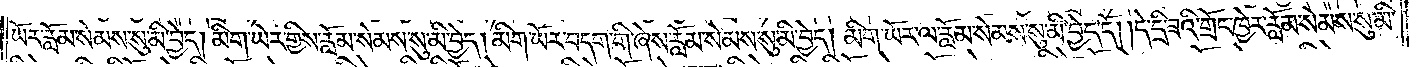ཡོར་རློམ་སེམས་སུ་མི་བྱེད། མིག་ཡོར་གྱིས་རློམ་སེམས་སུ་མི་བྱེད། མིག་ཡོར་བདག་གི་ཞེས་རློམ་སེམས་སུ་མི་བྱེད། མིག་ཡོར་ལ་རློམ་སེམས་སུ་མི་བྱེད་དོ། །དེ་དྲི་ཟའི་གྲོང་ཁྱེར་རློམ་སེམས་སུ་མི་
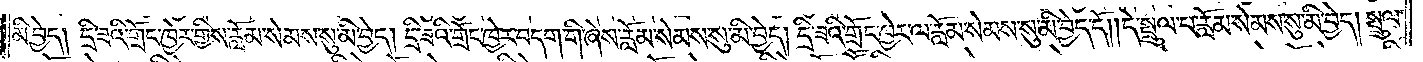མི་བྱེད། དྲི་ཟའི་གྲོང་ཁྱེར་གྱིས་རློམ་སེམས་སུ་མི་བྱེད། དྲི་ཟའི་གྲོང་ཁྱེར་བདག་གི་ཞེས་རློམ་སེམས་སུ་མི་བྱེད། དྲི་ཟའི་གྲོང་ཁྱེར་ལ་རློམ་སེམས་སུ་མི་བྱེད་དོ། །དེ་སྤྲུལ་པ་རློམ་སེམས་སུ་མི་བྱེད། སྤྲུལ་
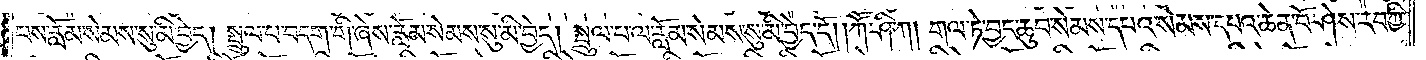པས་རློམ་སེམས་སུ་མི་བྱེད། སྤྲུལ་པ་བདག་གི་ཞེས་རློམ་སེམས་སུ་མི་བྱེད། སྤྲུལ་པ་ལ་རློམ་སེམས་སུ་མི་བྱེད་དོ། །ཀཽ་ཤི་ཀ། གལ་ཏེ་བྱང་ཆུབ་སེམས་དཔའ་སེམས་དཔའ་ཆེན་པོ་ཤེས་རབ་ཀྱི་
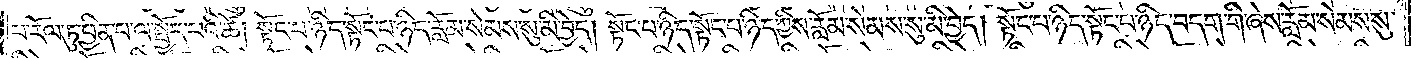ཕ་རོལ་ཏུ་ཕྱིན་པ་ལ་སྤྱོད་པའི་ཚེ། སྟོང་པ་ཉིད་སྟོང་པ་ཉིད་རློམ་སེམས་སུ་མི་བྱེད། སྟོང་པ་ཉིད་སྟོང་པ་ཉིད་ཀྱིས་རློམ་སེམས་སུ་མི་བྱེད། སྟོང་པ་ཉིད་སྟོང་པ་ཉིད་བདག་གི་ཞེས་རློམ་སེམས་སུ་
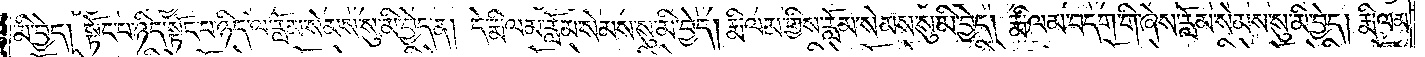མི་བྱེད། སྟོང་པ་ཉིད་སྟོང་པ་ཉིད་ལ་རློམ་སེམས་སུ་མི་བྱེད་ན། དེ་རྨི་ལམ་རློམ་སེམས་སུ་མི་བྱེད། རྨི་ལམ་གྱིས་རློམ་སེམས་སུ་མི་བྱེད། རྨི་ལམ་བདག་གི་ཞེས་རློམ་སེམས་སུ་མི་བྱེད། རྨི་ལམ་
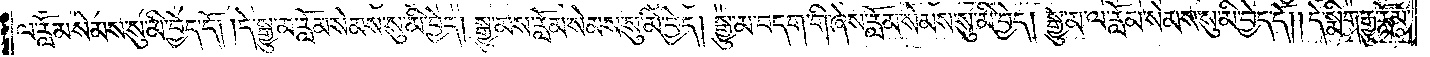ལ་རློམ་སེམས་སུ་མི་བྱེད་དོ། །དེ་སྒྱུ་མ་རློམ་སེམས་སུ་མི་བྱེད། སྒྱུ་མས་རློམ་སེམས་སུ་མི་བྱེད། སྒྱུ་མ་བདག་གི་ཞེས་རློམ་སེམས་སུ་མི་བྱེད། སྒྱུ་མ་ལ་རློམ་སེམས་སུ་མི་བྱེད་དོ། །དེ་སྨིག་རྒྱུ་རློམ་
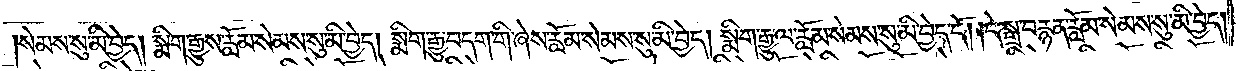སེམས་སུ་མི་བྱེད། སྨིག་རྒྱུས་རློམ་སེམས་སུ་མི་བྱེད། སྨིག་རྒྱུ་བདག་གི་ཞེས་རློམ་སེམས་སུ་མི་བྱེད། སྨིག་རྒྱུ་ལ་རློམ་སེམས་སུ་མི་བྱེད་དོ། །དེ་སྒྲ་བརྙན་རློམ་སེམས་སུ་མི་བྱེད།
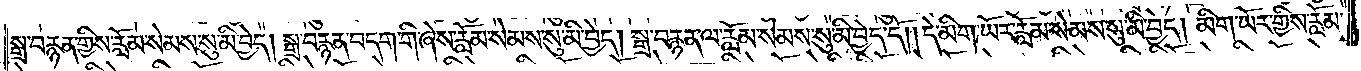སྒྲ་བརྙན་གྱིས་རློམ་སེམས་སུ་མི་བྱེད། སྒྲ་བརྙན་བདག་གི་ཞེས་རློམ་སེམས་སུ་མི་བྱེད། སྒྲ་བརྙན་ལ་རློམ་སེམས་སུ་མི་བྱེད་དོ། །དེ་མིག་ཡོར་རློམ་སེམས་སུ་མི་བྱེད། མིག་ཡོར་གྱིས་རློམ་
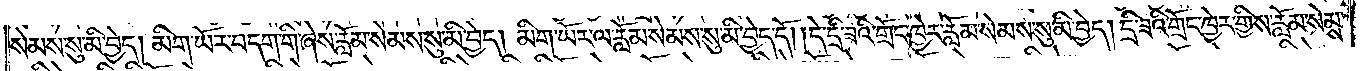སེམས་སུ་མི་བྱེད། མིག་ཡོར་བདག་གི་ཞེས་རློམ་སེམས་སུ་མི་བྱེད། མིག་ཡོར་ལ་རློམ་སེམས་སུ་མི་བྱེད་དོ། །དེ་དྲི་ཟའི་གྲོང་ཁྱེར་རློམ་སེམས་སུ་མི་བྱེད། དྲི་ཟའི་གྲོང་ཁྱེར་གྱིས་རློམ་སེམས་
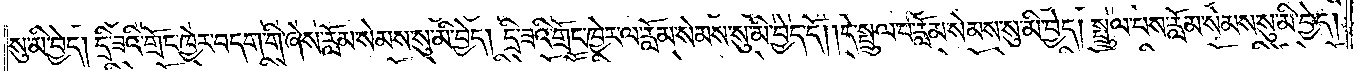སུ་མི་བྱེད། དྲི་ཟའི་གྲོང་ཁྱེར་བདག་གི་ཞེས་རློམ་སེམས་སུ་མི་བྱེད། དྲི་ཟའི་གྲོང་ཁྱེར་ལ་རློམ་སེམས་སུ་མི་བྱེད་དོ། །དེ་སྤྲུལ་པ་རློམ་སེམས་སུ་མི་བྱེད། སྤྲུལ་པས་རློམ་སེམས་སུ་མི་བྱེད།
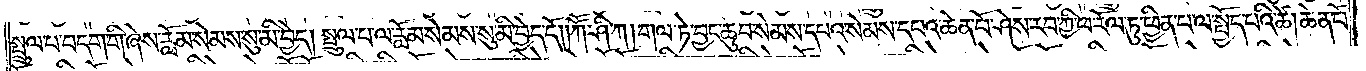སྤྲུལ་པ་བདག་གི་ཞེས་རློམ་སེམས་སུ་མི་བྱེད། སྤྲུལ་པ་ལ་རློམ་སེམས་སུ་མི་བྱེད་དོ། །ཀཽ་ཤི་ཀ། གལ་ཏེ་བྱང་ཆུབ་སེམས་དཔའ་སེམས་དཔའ་ཆེན་པོ་ཤེས་རབ་ཀྱི་ཕ་རོལ་ཏུ་ཕྱིན་པ་ལ་སྤྱོད་པའི་ཚེ། ཆེན་པོ་
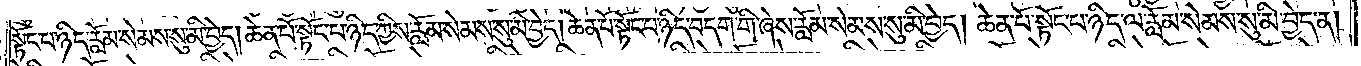སྟོང་པ་ཉིད་རློམ་སེམས་སུ་མི་བྱེད། ཆེན་པོ་སྟོང་པ་ཉིད་ཀྱིས་རློམ་སེམས་སུ་མི་བྱེད། ཆེན་པོ་སྟོང་པ་ཉིད་བདག་གི་ཞེས་རློམ་སེམས་སུ་མི་བྱེད། ཆེན་པོ་སྟོང་པ་ཉིད་ལ་རློམ་སེམས་སུ་མི་བྱེད་ན།
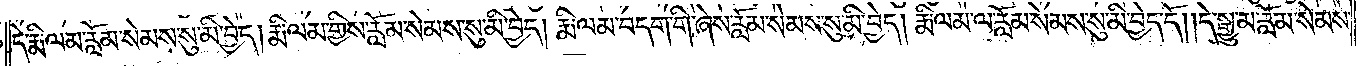དེ་རྨི་ལམ་རློམ་སེམས་སུ་མི་བྱེད། རྨི་ལམ་གྱིས་རློམ་སེམས་སུ་མི་བྱེད། རྨི་ལམ་བདག་གི་ཞེས་རློམ་སེམས་སུ་མི་བྱེད། རྨི་ལམ་ལ་རློམ་སེམས་སུ་མི་བྱེད་དོ། །དེ་སྒྱུ་མ་རློམ་སེམས་
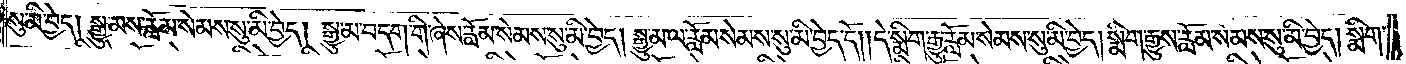སུ་མི་བྱེད། སྒྱུ་མས་རློམ་སེམས་སུ་མི་བྱེད། སྒྱུ་མ་བདག་གི་ཞེས་རློམ་སེམས་སུ་མི་བྱེད། སྒྱུ་མ་ལ་རློམ་སེམས་སུ་མི་བྱེད་དོ། །དེ་སྨིག་རྒྱུ་རློམ་སེམས་སུ་མི་བྱེད། སྨིག་རྒྱུས་རློམ་སེམས་སུ་མི་བྱེད། སྨིག་
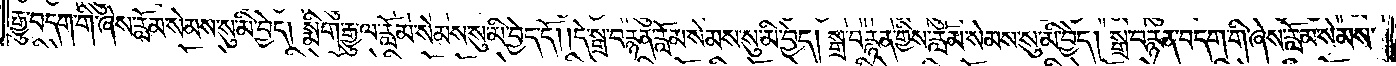རྒྱུ་བདག་གི་ཞེས་རློམ་སེམས་སུ་མི་བྱེད། སྨིག་རྒྱུ་ལ་རློམ་སེམས་སུ་མི་བྱེད་དོ། །དེ་སྒྲ་བརྙན་རློམ་སེམས་སུ་མི་བྱེད། སྒྲ་བརྙན་གྱིས་རློམ་སེམས་སུ་མི་བྱེད། སྒྲ་བརྙན་བདག་གི་ཞེས་རློམ་སེམས་
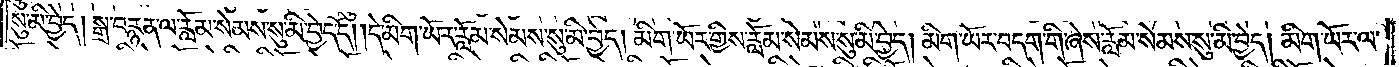སུ་མི་བྱེད། སྒྲ་བརྙན་ལ་རློམ་སེམས་སུ་མི་བྱེད་དོ། །དེ་མིག་ཡོར་རློམ་སེམས་སུ་མི་བྱེད། མིག་ཡོར་གྱིས་རློམ་སེམས་སུ་མི་བྱེད། མིག་ཡོར་བདག་གི་ཞེས་རློམ་སེམས་སུ་མི་བྱེད། མིག་ཡོར་ལ་
